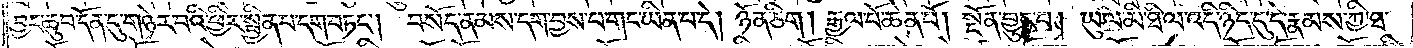བྱང་ཆུབ་དོན་དུ་གཉེར་བའི་ཕྱིར་སྦྱིན་པ་དག་བཏང༌། བསོད་ནམས་དག་བྱས་པ་གང་ཡིན་པ་དེ། ཉོན་ཅིག །རྒྱལ་པོ་ཆེན་པོ། སྔོན་བྱུང་བ། ཡུལ་མི་ཐི་ལ་འདི་ཉིད་དུ་དེ་རྣམས་ཀྱི་ཐ་
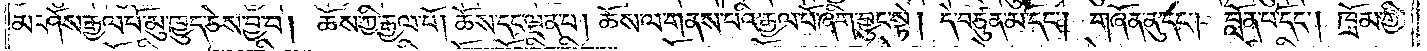མ་ཤོས་རྒྱལ་པོ་མུ་ཁྱུད་ཅེས་བྱ་བ། ཆོས་ཀྱི་རྒྱལ་པོ། ཆོས་དང་ལྡན་པ། ཆོས་ལ་གནས་པའི་རྒྱལ་པོ་ཞིག་བྱུང་སྟེ། དེ་བཙུན་མོ་དང༌། གཞོན་ནུ་དང༌། བློན་པོ་དང༌། ཁྲོམ་གྱི་
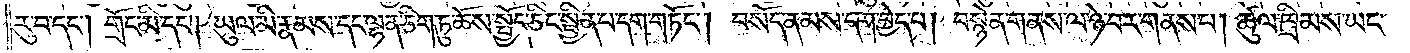རུ་བ་དང༌། གྲོང་མི་དང༌། ཡུལ་མི་རྣམས་དང་ལྷན་ཅིག་ཏུ་ཆོས་སྤྱོད་ཅིང་སྦྱིན་པ་དག་གཏོང༌། བསོད་ནམས་དག་བྱེད་པ། བསྙེན་གནས་ལ་ཉེ་བར་གནས་པ། ཚུལ་ཁྲིམས་ཡང་
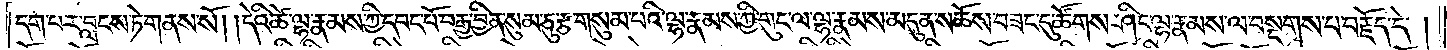དག་པར་བླངས་ཏེ་གནས་སོ། །དེའི་ཚེ་ལྷ་རྣམས་ཀྱི་དབང་པོ་བརྒྱ་བྱིན་སུམ་ཅུ་རྩ་གསུམ་པའི་ལྷ་རྣམས་ཀྱི་གུང་ལ་ལྷ་རྣམས་མདུན་ས་ཆོས་བཟང་དུ་ཚོགས་ཤིང་ལྷ་རྣམས་ལ་བསྔགས་པ་བརྗོད་དེ།
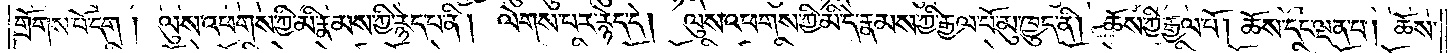གྲོགས་པོ་དག །ལུས་འཕགས་ཀྱི་མི་རྣམས་ཀྱི་རྙེད་པ་ནི། ལེགས་པར་རྙེད་དེ། ལུས་འཕགས་ཀྱི་མི་དེ་རྣམས་ཀྱི་རྒྱལ་པོ་མུ་ཁྱུད་ནི། ཆོས་ཀྱི་རྒྱལ་པོ། ཆོས་དང་ལྡན་པ། ཆོས་
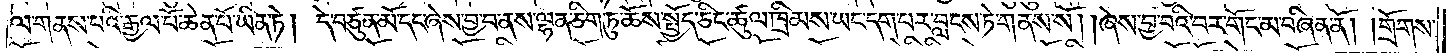ལ་གནས་པའི་རྒྱལ་པོ་ཆེན་པོ་ཡིན་ཏེ། དེ་བཙུན་མོ་དང་ཞེས་བྱ་བ་ནས་ལྷན་ཅིག་ཏུ་ཆོས་སྤྱོད་ཅིང་ཚུལ་ཁྲིམས་ཡང་དག་པར་བླངས་ཏེ་གནས་སོ། །ཞེས་བྱ་བའི་བར་གོང་མ་བཞིན་ནོ། །གྲོགས་
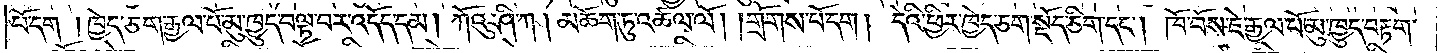པོ་དག །ཁྱེད་ཅག་རྒྱལ་པོ་མུ་ཁྱུད་བལྟ་བར་འདོད་དམ། ཀོའུ་ཤི་ཀ། མཆོག་ཏུ་འཚལ་ལོ། །གྲོགས་པོ་དག །དེའི་ཕྱིར་ཁྱེད་ཅག་སྡོད་ཅིག་དང༌། ཁོ་བོས་ཇེ་རྒྱལ་པོ་མུ་ཁྱུད་བརྟག་
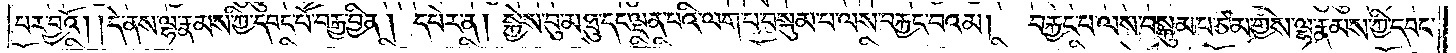པར་བྱའོ། །དེ་ནས་ལྷ་རྣམས་ཀྱི་དབང་པོ་བརྒྱ་བྱིན། དཔེར་ན། སྐྱེས་བུ་མཐུ་དང་ལྡན་པའི་ལག་པ་བསྐུམ་པ་ལས་བརྐྱང་བའམ། བརྐྱང་བ་ལས་བསྐུམ་པ་ཙམ་གྱིས་ལྷ་རྣམས་ཀྱི་དབང་
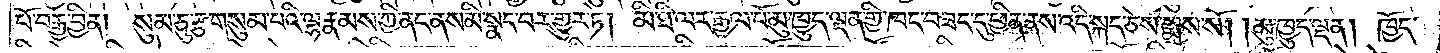པོ་བརྒྱ་བྱིན། སུམ་ཅུ་རྩ་གསུམ་པའི་ལྷ་རྣམས་ཀྱི་ནང་ནས་མི་སྣང་བར་གྱུར་ཏེ། མི་ཐི་ལར་རྒྱལ་པོ་མུ་ཁྱུད་ལྡན་གྱི་ཁང་བཟང་དུ་ཕྱིན་ནས་འདི་སྐད་ཅེས་སྨྲས་སོ། །མུ་ཁྱུད་ལྡན། ཁྱོད་
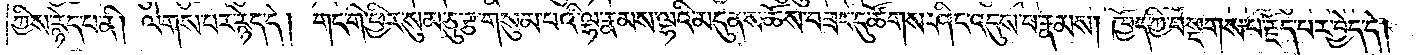ཀྱིས་རྙེད་པ་ནི། ལེགས་པར་རྙེད་དེ། གང་གི་ཕྱིར་སུམ་ཅུ་རྩ་གསུམ་པའི་ལྷ་རྣམས་ལྷའི་མདུན་ས་ཆོས་བཟང་དུ་ཚོགས་ཤིང་འདུས་པ་རྣམས། ཁྱོད་ཀྱི་བསྔགས་པ་རྗོད་པར་བྱེད་དེ།
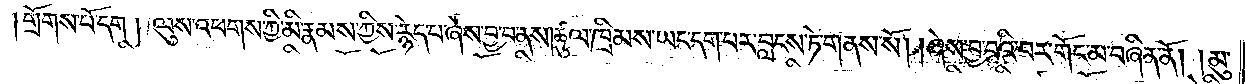།གྲོགས་པོ་དག །ལུས་འཕགས་ཀྱི་མི་རྣམས་ཀྱིས་རྙེད་པ་ཞེས་བྱ་བ་ནས། ཚུལ་ཁྲིམས་ཡང་དག་པར་བླངས་ཏེ་གནས་སོ། །ཞེས་བྱ་བའི་བར་གོང་མ་བཞིན་ནོ། །མུ་
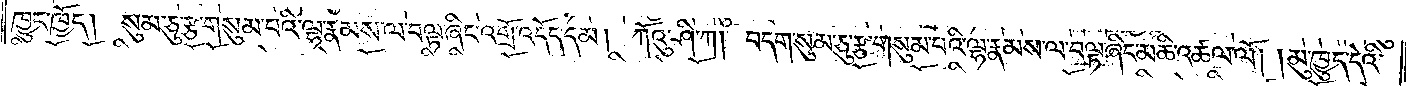ཁྱུད་ཁྱོད། སུམ་ཅུ་རྩ་གསུམ་པའི་ལྷ་རྣམས་ལ་བལྟ་ཞིང་འགྲོ་འདོད་དམ། ཀོའུ་ཤི་ཀ། བདག་སུམ་ཅུ་རྩ་གསུམ་པའི་ལྷ་རྣམས་ལ་བལྟ་ཞིང་མཆི་འཚལ་ལོ། །མུ་ཁྱུད་དེའི་
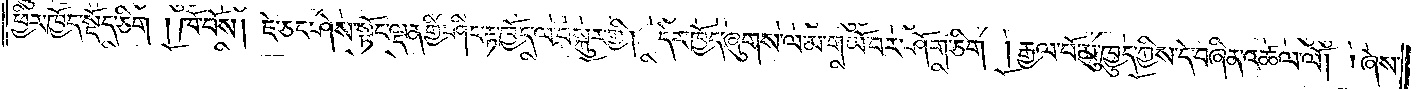ཕྱིར་ཁྱོད་སྡོད་ཅིག །ཁོ་བོས། ཇེ་ཅང་ཤེས་སྟོང་ལྡན་གྱི་ཤིང་རྟ་ཁྱོད་ལ་བསྐུར་གྱི། དེར་ཁྱོད་ཞུགས་ལ་མ་གཡོ་བར་ཤོག་ཅིག །རྒྱལ་པོ་མུ་ཁྱུད་ཀྱིས་དེ་བཞིན་འཚལ་ལོ། །ཞེས་
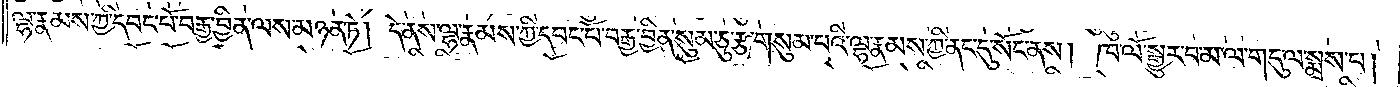ལྷ་རྣམས་ཀྱི་དབང་པོ་བརྒྱ་བྱིན་ལས་མཉན་ཏེ། དེ་ནས་ལྷ་རྣམས་ཀྱི་དབང་པོ་བརྒྱ་བྱིན་སུམ་ཅུ་རྩ་གསུམ་པའི་ལྷ་རྣམས་ཀྱི་ནང་དུ་སོང་ནས། ཁ་ལོ་སྒྱུར་བ་མ་ལ་གདུ་ལ་སྨྲས་པ།
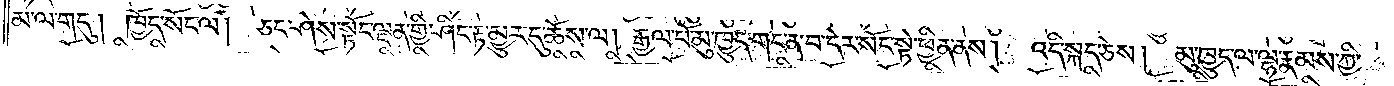མ་ལ་གདུ། ཁྱོད་སོང་ལ། ཅང་ཤེས་སྟོང་ལྡན་གྱི་ཤིང་རྟ་མྱུར་དུ་ཆོས་ལ། རྒྱལ་པོ་མུ་ཁྱུད་གང་ན་བ་དེར་སོང་སྟེ་ཕྱིན་ནས། འདི་སྐད་ཅེས། མུ་ཁྱུད་ལ་ལྷ་རྣམས་ཀྱི་
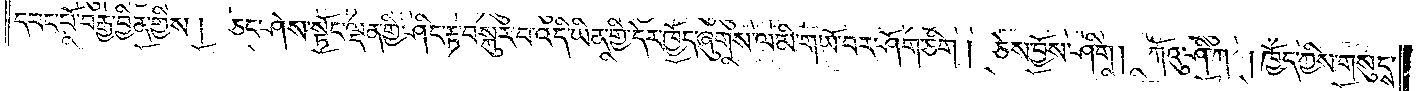དབང་པོ་བརྒྱ་བྱིན་གྱིས།  ཅང་ཤེས་སྟོང་ལྡན་གྱི་ཤིང་རྟ་བསྐུར་བ་འདི་ཡིན་གྱི་དེར་ཁྱོད་ཞུགས་ལ་མི་གཡོ་བར་ཤོག་ཅིག །ཅེས་བྱོས་ཤིག །ཀོའུ་ཤི་ཀ། ཁྱོད་ཀྱིས་གསུངས་
